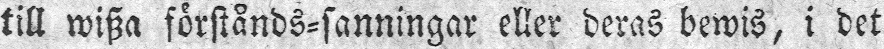till wisza förstånds-sanningar eller deras bewis, i det
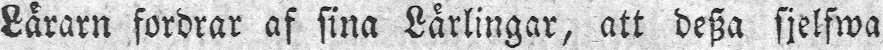Lärarn fordrar af sina Lärlingar, att desza sjelfwa
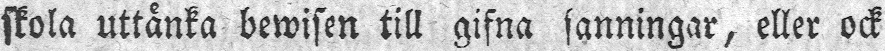skola uttänka bewisen till gifna sanningar, eller ock
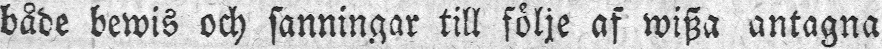både bewis och sanningar till följe af wisza antagna
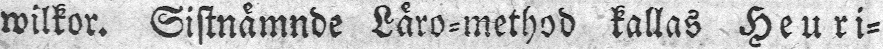wilkor. Sistnämnde Läro-method kallas Heuri-
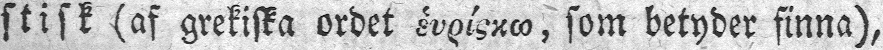stisk (af grekiska ordet έυρίςκω, som betyder finna),
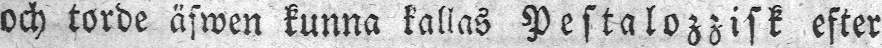och torde äfwen kunna kallas Pestalozzisk efter
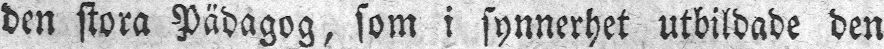den stora Pädagog, som i synnerhet utbildade den
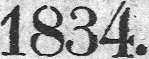1834.
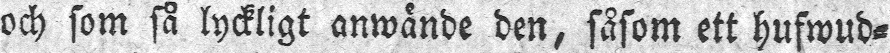och som så lyckligt anwände den, såsom ett hufwud-
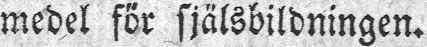medel för själsbildningen.
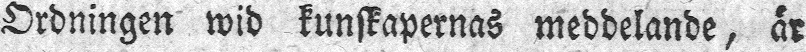Ordningen wid kunskapernas meddelande, är
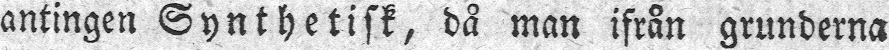antingen Synthetisk, då man ifrån grunderna
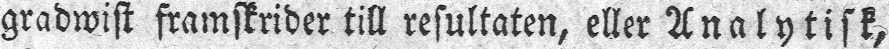gradwist framskrider till resultaten, eller Analytisk,
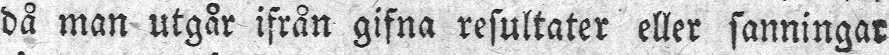då man utgår ifrån gifna resultater eller sanningar
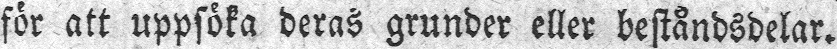för att uppsöka deras grunder eller beståndsdelar.
